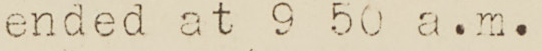ended at 9 50 a.m.
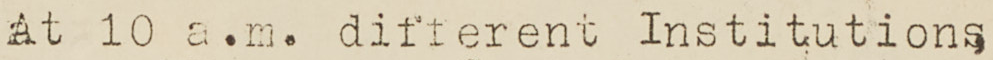At 10 a.m. different Institutions,
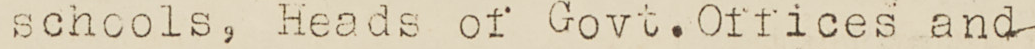schools, Heads of Govt. Offices and
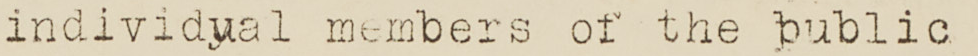individual members of the public
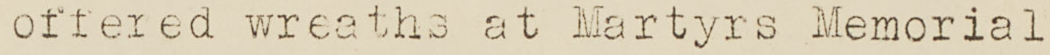offered wreaths at Martyrs Memorial
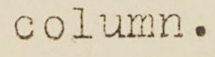column.
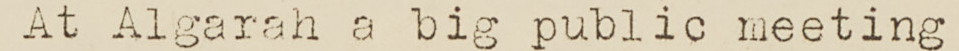At Algarah a big public meeting
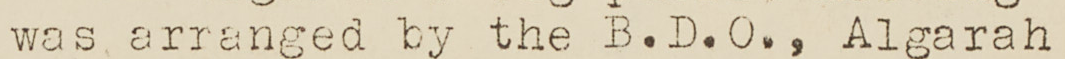was arranged by the B.D.O., Algarah
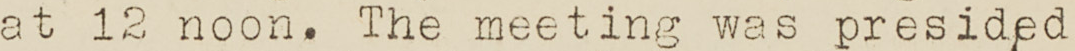at 12 noon. The meeting was presided
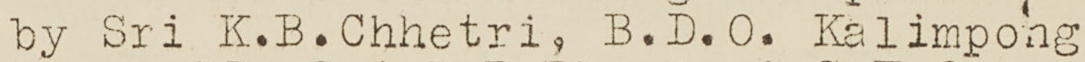by Sri K.B.Chhetri, B.D.O. Kalimpong
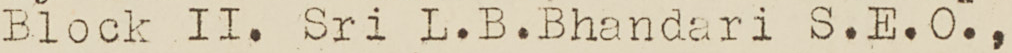Block II. Sri L.B.Bhandari S.E.O.,
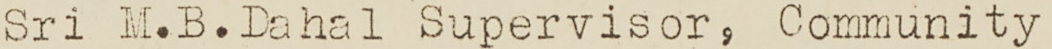Sri M.B. Dahl Supervisor, Community
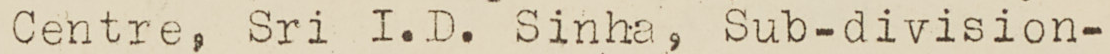Centre, Sri I.D. Sinha, Sub-division-
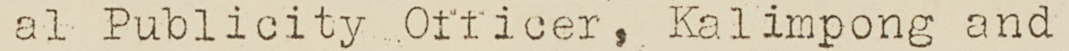al Publicity Officer, Kalimpong and
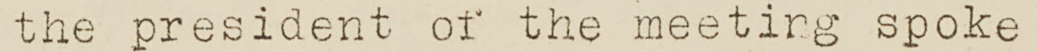the president of the meeting spoke
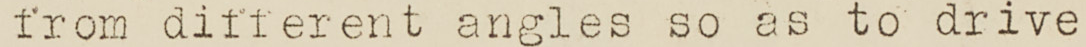from different angles so as to drive
